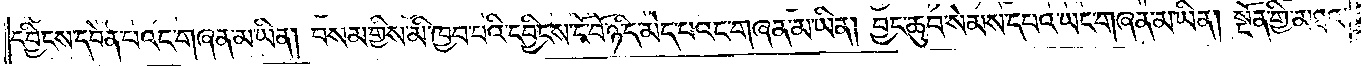དབྱིངས་དབེན་པའང་གཞན་མ་ཡིན། བསམ་གྱིས་མི་ཁྱབ་པའི་དབྱིངས་ངོ་བོ་ཉིད་མེད་པའང་གཞན་མ་ཡིན། བྱང་ཆུབ་སེམས་དཔའ་ཡང་གཞན་མ་ཡིན། སྔོན་གྱི་མཐའ་
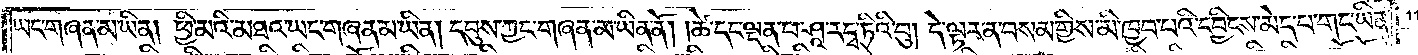ཡང་གཞན་མ་ཡིན། ཕྱི་མའི་མཐའ་ཡང་གཞན་མ་ཡིན། དབུས་ཀྱང་གཞན་མ་ཡིན་ནོ། །ཚེ་དང་ལྡན་པ་ཤཱ་རདྭ་ཏིའི་བུ། དེ་ལྟར་ན་བསམ་གྱིས་མི་ཁྱབ་པའི་དབྱིངས་མེད་པ་གང་ཡིན་
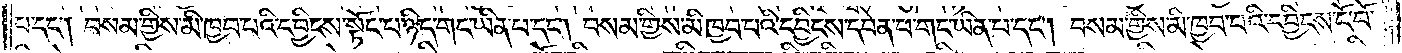པ་དང༌། བསམ་གྱིས་མི་ཁྱབ་པའི་དབྱིངས་སྟོང་པ་ཉིད་གང་ཡིན་པ་དང༌། བསམ་གྱིས་མི་ཁྱབ་པའི་དབྱིངས་དབེན་པ་གང་ཡིན་པ་དང༌། བསམ་གྱིས་མི་ཁྱབ་པའི་དབྱིངས་ངོ་བོ་
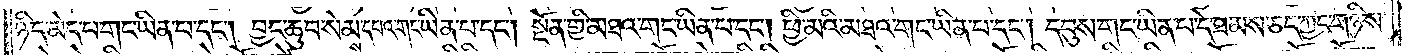ཉིད་མེད་པ་གང་ཡིན་པ་དང༌། བྱང་ཆུབ་སེམས་དཔའ་གང་ཡིན་པ་དང༌། སྔོན་གྱི་མཐའ་གང་ཡིན་པ་དང༌། ཕྱི་མའི་མཐའ་གང་ཡིན་པ་དང༌། དབུས་གང་ཡིན་པ་དེ་ཐམས་ཅད་ཀྱང་གཉིས་
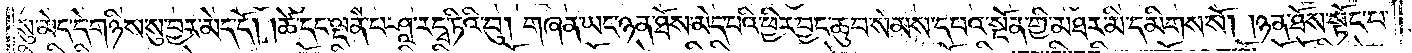སུ་མེད་དེ་གཉིས་སུ་བྱར་མེད་དོ། །ཚེ་དང་ལྡན་པ་ཤཱ་རདྭ་ཏིའི་བུ། གཞན་ཡང་ཉན་ཐོས། མེད་པའི་ཕྱིར་བྱང་ཆུབ་སེམས་དཔའ་སྔོན་གྱི་མཐར་མི་དམིགས་སོ། །ཉན་ཐོས་སྟོང་པ་
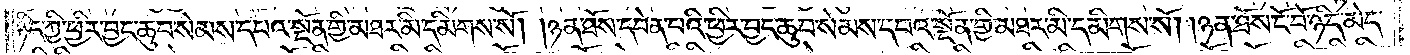ཉིད་ཀྱི་ཕྱིར་བྱང་ཆུབ་སེམས་དཔའ་སྔོན་གྱི་མཐར་མི་དམིགས་སོ། །ཉན་ཐོས་དབེན་པའི་ཕྱིར་བྱང་ཆུབ་སེམས་དཔའ་སྔོན་གྱི་མཐར་མི་དམིགས་སོ། །ཉན་ཐོས་ངོ་བོ་ཉིད་མེད་
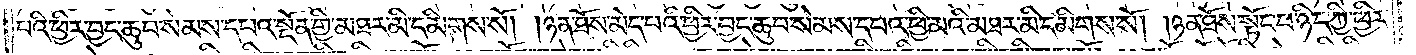པའི་ཕྱིར་བྱང་ཆུབ་སེམས་དཔའ་སྔོན་གྱི་མཐར་མི་དམིགས་སོ། །ཉན་ཐོས་མེད་པའི་ཕྱིར་བྱང་ཆུབ་སེམས་དཔའ་ཕྱི་མའི་མཐར་མི་དམིགས་སོ། །ཉན་ཐོས་སྟོང་པ་ཉིད་ཀྱི་ཕྱིར་
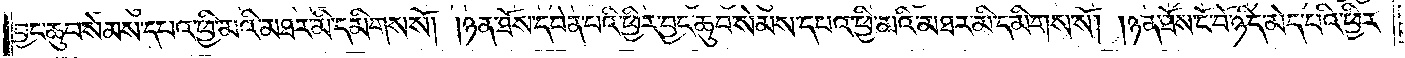བྱང་ཆུབ་སེམས་དཔའ་ཕྱི་མའི་མཐར་མི་དམིགས་སོ། །ཉན་ཐོས་དབེན་པའི་ཕྱིར་བྱང་ཆུབ་སེམས་དཔའ་ཕྱི་མའི་མཐར་མི་དམིགས་སོ། །ཉན་ཐོས་ངོ་བོ་ཉིད་མེད་པའི་ཕྱིར་
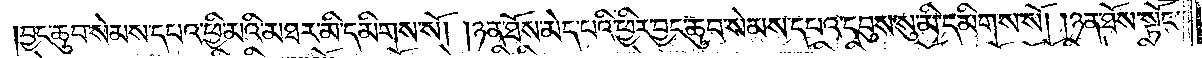བྱང་ཆུབ་སེམས་དཔའ་ཕྱི་མའི་མཐར་མི་དམིགས་སོ། །ཉན་ཐོས་མེད་པའི་ཕྱིར་བྱང་ཆུབ་སེམས་དཔའ་དབུས་སུ་མི་དམིགས་སོ། །ཉན་ཐོས་སྟོང་
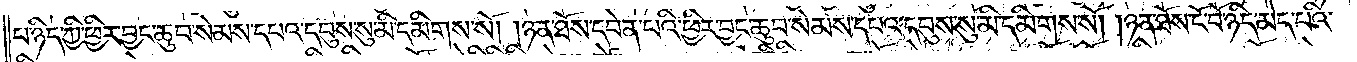པ་ཉིད་ཀྱི་ཕྱིར་བྱང་ཆུབ་སེམས་དཔའ་དབུས་སུ་མ་དམིགས་སོ། །ཉན་ཐོས་དབེན་པའི་ཕྱིར་བྱང་ཆུབ་སེམས་དཔའ་དབུས་སུ་མི་དམིགས་སོ། །ཉན་ཐོས་ངོ་བོ་ཉིད་མེད་པའི་
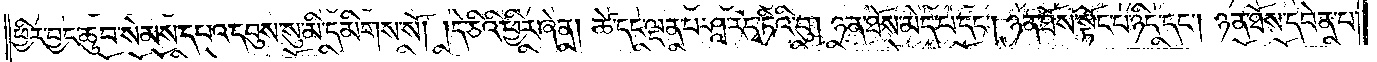ཕྱིར་བྱང་ཆུབ་སེམས་དཔའ་དབུས་སུ་མི་དམིགས་སོ། །དེ་ཅིའི་ཕྱིར་ཞེ་ན། ཚེ་དང་ལྡན་པ་ཤཱ་རདྭ་ཏིའི་བུ། ཉན་ཐོས་མེད་པ་དང༌། ཉན་ཐོས་སྟོང་པ་ཉིད་དང༌། ཉན་ཐོས་དབེན་པ་
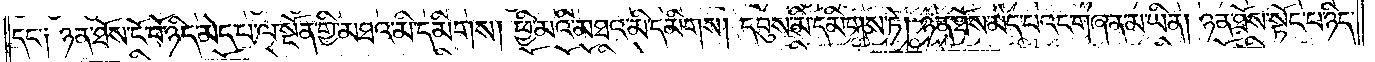དང་༑ ཉན་ཐོས་ངོ་བོ་ཉིད་མེད་པ་ལ་སྔོན་གྱི་མཐའ་མི་དམིགས། ཕྱི་མའི་མཐའ་མི་དམིགས། དབུས་མི་དམིགས་ཏེ། ཉན་ཐོས་མེད་པའང་གཞན་མ་ཡིན། ཉན་ཐོས་སྟོང་པ་ཉིད་
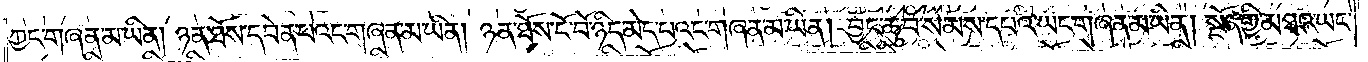ཀྱང་གཞན་མ་ཡིན། ཉན་ཐོས་དབེན་པའང་གཞན་མ་ཡིན། ཉན་ཐོས་དེ་ངོ་བོ་ཉིད་མེད་པའང་གཞན་མ་ཡིན། བྱང་ཆུབ་སེམས་དཔའ་ཡང་གཞན་མ་ཡིན། སྔོན་གྱི་མཐའ་ཡང་
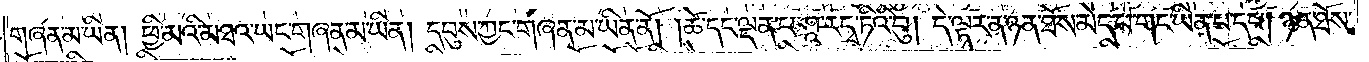གཞན་མ་ཡིན། ཕྱི་མའི་མཐའ་ཡང་གཞན་མ་ཡིན། དབུས་ཀྱང་གཞན་མ་ཡིན་ནོ། །ཚེ་དང་ལྡན་པ་ཤཱ་རདྭ་ཏིའི་བུ། དེ་ལྟར་ན་ཉན་ཐོས་མེད་པ་གང་ཡིན་པ་དང༌། ཉན་ཐོས་
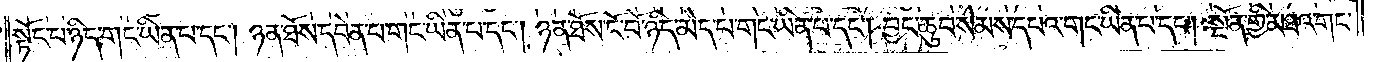སྟོང་པ་ཉིད་གང་ཡིན་པ་དང༌། ཉན་ཐོས་དབེན་པ་གང་ཡིན་པ་དང༌། ཉན་ཐོས་ངོ་བོ་ཉིད་མེད་པ་གང་ཡིན་པ་དང༌། བྱང་ཆུབ་སེམས་དཔའ་གང་ཡིན་པ་དང༌། སྔོན་གྱི་མཐའ་གང་
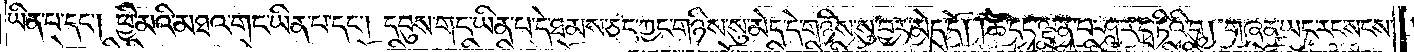ཡིན་པ་དང༌། ཕྱི་མའི་མཐའ་གང་ཡིན་པ་དང༌། དབུས་གང་ཡིན་པ་དེ་ཐམས་ཅད་ཀྱང་གཉིས་སུ་མེད་དེ་གཉིས་སུ་བྱར་མེད་དོ། །ཚེ་དང་ལྡན་པ་ཤཱ་རདྭ་ཏིའི་བུ། གཞན་ཡང་རང་སངས་
